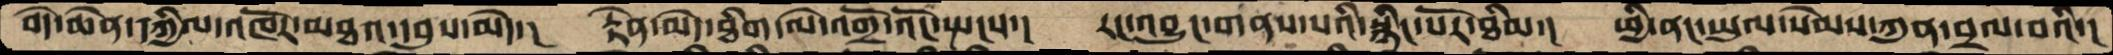བདེ་ཆེན་དཀྱིལ་འཁོར་མཐའ་དབུས་མེད་།  རྟེན་མེད་ཐིག་ལེ་འགྲོ་འོང་སྤངས་།  རང་འབྱུང་གནས་པའི་སྙིང་པོར་ཐིམ་།  ཕྱི་ནང་ཡུལ་སེམས་ཀུན་བྲལ་བའི་།
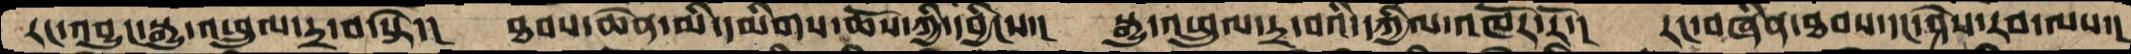རང་འབྱུང་སྒྱུ་འཕྲུལ་དྲ་བ་སྟེ་།  ཐབས་ཆེན་མི་དམིགས་ཆོས་ཀྱི་དབྱིངས་།  སྒྱུ་འཕྲུལ་དྲ་བའི་དཀྱིལ་འཁོར་རོ་།  རང་བཞིན་ཐབས་དང་ཤེས་རབ་ལས་།
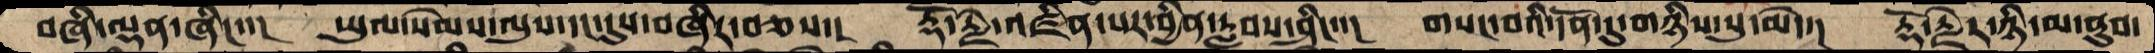བཞི་ལྡན་ཞིང་་།  ཡུལ་སེམས་ལུས་དང་དུས་བཞིར་བཅས་།  རྡོ་རྗེ་འཛིན་པར་བྱིན་རླབས་ཤིང་་།  གསང་བའི་དོན་དུ་གཉིས་སུ་མེད་།  རྡོ་རྗེར་ཉི་མ་ནུབ་
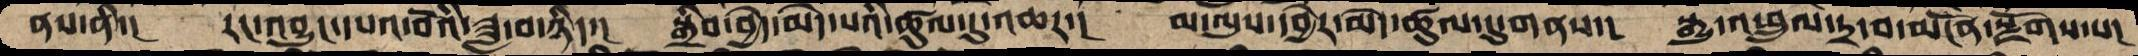ནས་ནི་།  རང་འབྱུང་དཔའ་བོའི་ཟླ་བ་ཉིད་།  སྒྲིབ་བྱེད་མེད་པའི་ཚུལ་དུ་འཆར་།  མ་ལུས་དབྱེར་མེད་ཚུལ་དུ་གནས་།  སྒྱུ་འཕྲུལ་དྲ་བ་མངོན་སྫོགས་པ།
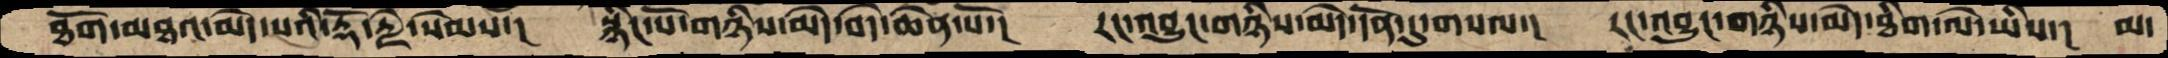ཐོག་མཐའ་མེད་པའི་རྡོ་རྗེ་སེམས་།  སྙིང་པོ་གཉིས་མེད་བདེ་ཆེན་པོ་།  རང་འབྱུང་གཉིས་མེད་དོན་དུ་གསལ་།  རང་འབྱུང་གཉིས་མེད་ཐིག་ལེ་ཡིས་།  མ་
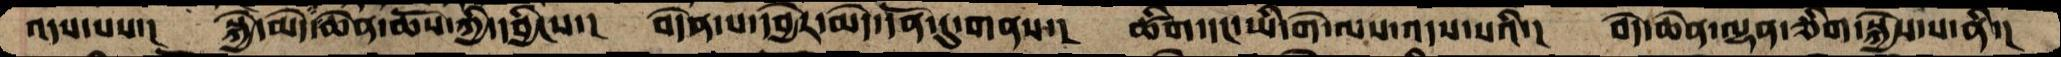འདས་པས་།  སྐྱེ་མེད་ཆེན་ཆོས་ཀྱི་དབྱིངས་།  བདེན་པ་དབྱེར་མེད་དོན་དུ་གནས་།  ཚིག་དང་ཡི་གེ་ལས་འདས་པའི་།  བདེ་ཆེན་ལྷན་ཅིག་སྐྱེས་པ་ནི་།
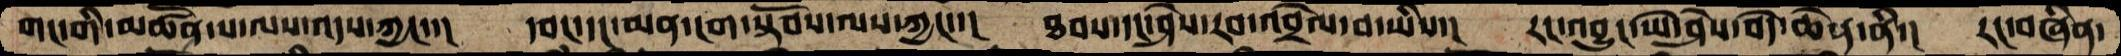གང་གི་མཚོན་པ་ལས་འདས་ཀྱང་་།  དབང་དང་མན་ངག་སྟོབས་ལས་ཀྱང་་།  ཐབས་དང་ཤེས་རབ་འབྲེལ་བ་ཡིས་།  རང་འབྱུང་ཡེ་ཤེས་བདེ་ཆེན་ནི་།  རང་བཞིན་
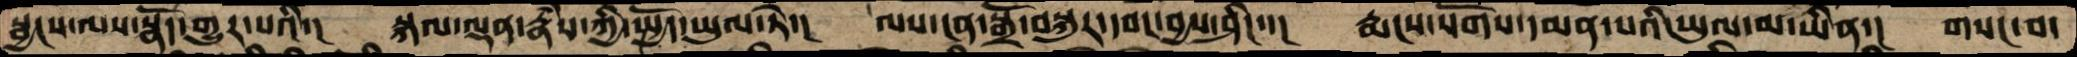སྦྱངས་ལས་སྣོད་གྱུར་པའི་།  སྐལ་ལྡན་རྣཾས་ཀྱི་སྤྱོད་ཡུལ་ཏེ་།  ལས་ངན་སྒྲོ་བསྐུར་དབང་བྱས་ཤིང་་།  རྨངས་སོགས་དམན་པའི་ཡུལ་མ་ཡིན་།  གསང་བ་
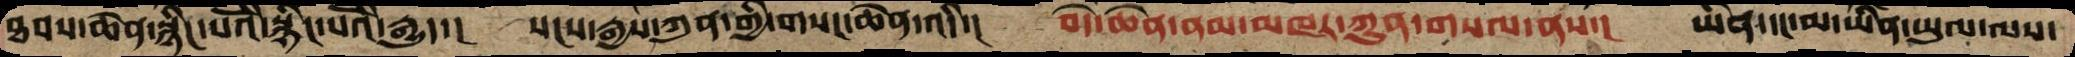ཐབས་ཆེན་སྙིང་པོའི་སྙིང་པོའི་རྒྱུད་།  སངས་རྒྱས་ཀུན་གྱི་གསང་ཆེན་འདི་།  བདེ་ཆེན་ནམ་མཁར་ཀུན་གསལ་ནས་།  ཡིན་དང་མ་ཡིན་ཡུལ་ལས་
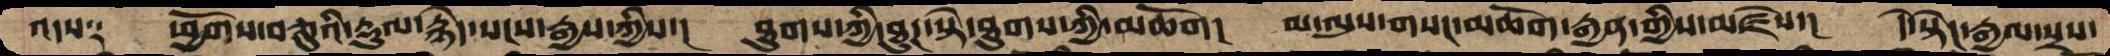འདས༑  ཕྱོགས་བཅུའི་རྡུལ་རྙེད་སངས་རྒྱས་ཀྱིས་།  ཐུགས་ཀྱི་ཐུཌ་སྟེ་ཐུགས་ཀྱི་མཆོག།  མ་ལུས་གསང་མཆོག་རྒྱན་གྱིས་མཛེས་།  དེ་སྟེང་རྒྱལ་སྲས་
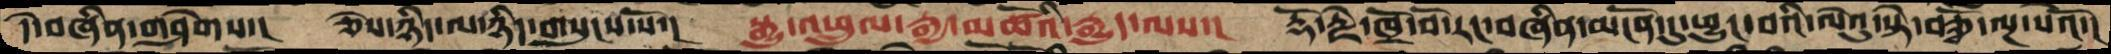དེ་བཞིན་གཤེགས་།  ཅེས་ཉིད་ལ་ཉིད་གསུང་སོ་།  སྒྱུ་འཕྲུལ་རྒྱ་མཚོའི་རྒྱུད་ལས་།  རྡོ་རྗེ་ཁྲོ་བོ་རང་བཞིན་མངོན་དུ་ཕྱུང་བའི་ལེའུ་སྟེ་བཅྭོ་ལྔ་པའོ་།
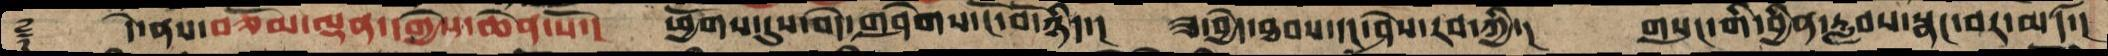࿑   དེ་ནས་བཅོམ་ལྡན་དགྱེས་ཆེན་པོ་།  ཕྱོགས་དུས་བདེ་གཤེགས་ངོ་བོ་ཉིད་།  ཟ་བྱེད་ཐབས་དང་ཤེས་རབ་ཀྱི་།  གསུང་གི་བྱིན་རླབས་སྣང་བར་མཛད་།
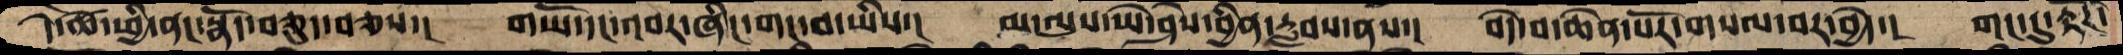དེ་ཚེ་ཕྱི་ནང་སྣོད་བཅུད་བཅས་།  གཡོ་དང་འབར་ཞིང་གང་བ་ཡིས་།  མ་ལུས་ཡེ་ཤེས་བྱིན་རླབས་ནས་།  བདེ་བ་ཆེན་པོར་གསལ་བར་བྱེད་།  གང་དུ་རྟོཌ་
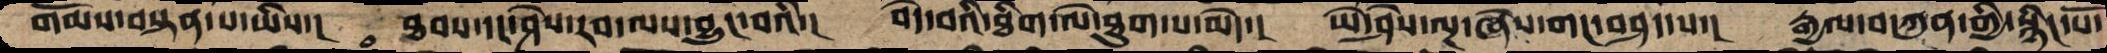གོམས་བསྟན་པ་ཡིས་།  ཐབས་དང་ཤེས་རབ་ལས་བྱུང་བའི་།  བདེ་བའི་ཐིག་ལེ་ཐུག་པ་མེད་།  ཡེ་ཤེས་ལྔ་ཞེས་གང་བཤད་པ་།  རྒྱལ་བ་ཀུན་གྱི་སྙིང་པོ་
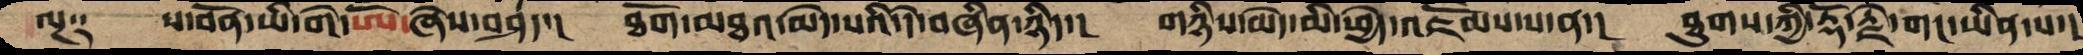ལྔ༑   ས་བོན་ཡི་གེ་ཨོ་ཞེས་བཤད་།  ཐོག་མཐའ་མེད་པའི་དེ་བཞིན་ཉིད་།  གཉིས་མེད་མི་ཕྱེད་འཇོམས་པ་ན་།  ཐུགས་ཀྱི་རྡོ་རྗེ་གང་ཡིན་པ་།
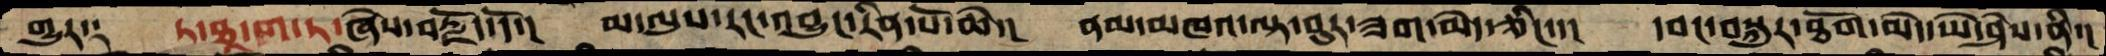གྱུར༑    ཏ་ཐཱ་ག་ཏ་ཞེས་བརྗོད་དོ་།   མ་ལུས་རང་འབྱུང་རིན་པོ་ཆེ་།  ནམ་མཁའ་ལྟ་བུར་ཟག་མེད་ཅིང་་།   དབང་བསྐུར་ཐོག་མེད་ཡེ་ཤེས་ནི་།
